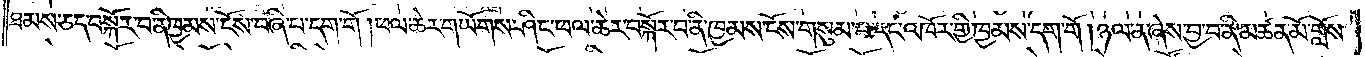ཐམས་ཅད་བསྐོར་བ་ནི་ཁྱམས་ངོས་བཞི་པ་དག་གོ །ཕལ་ཆེར་གཡོགས་ཤིང་ཕལ་ཆེར་བསྐོར་བ་ནི་ཁྱམས་ངོས་གསུམ་པ་དང་འཁོར་གྱི་ཁྱམས་དག་གོ །ཉལ་ན་ཞེས་བྱ་བ་ནི་མཚན་མོ་གློས་
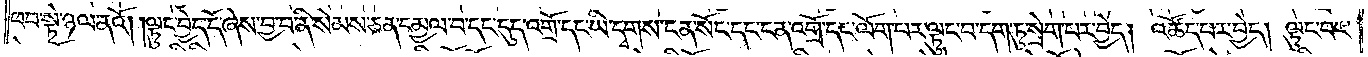ཕབ་སྟེ་ཉལ་ནའོ། །ལྟུང་བྱེད་དོ་ཞེས་བྱ་བ་ནི་སེམས་ཅན་དམྱལ་བ་དང་དུད་འགྲོ་དང་ཡི་དྭགས་ངན་སོང་དང་ངན་འགྲོ་དང་ལོག་པར་ལྟུང་བ་དག་ཏུ་སྲེག་པར་བྱེད། འཚོད་པར་བྱེད། ལྟུང་བར་
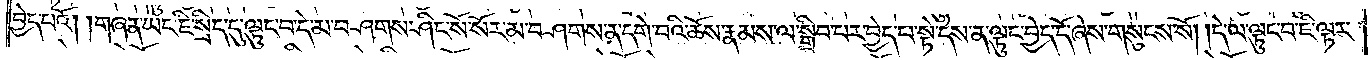བྱེད་པའོ། །གཞན་ཡང་ཇི་སྲིད་དུ་ལྟུང་བ་དེ་མ་བཤགས་ཤིང་སོ་སོར་མ་བཤགས་ན་དགེ་བའི་ཆོས་རྣམས་ལ་སྒྲིབ་པར་བྱེད་པ་སྟེ་དེས་ན་ལྟུང་བྱེད་དོ་ཞེས་གསུངས་སོ། །དེ་ལ་ལྟུང་བ་ཇི་ལྟར་
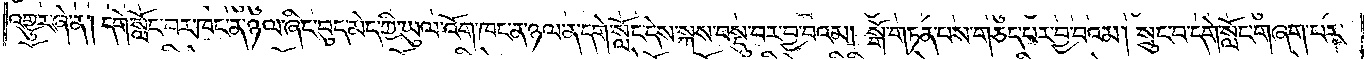འགྱུར་ཞེ་ན། དགེ་སློང་བར་ཁང་ན་ཉལ་ཞིང་བུད་མེད་ཀྱི་ཡུལ་འོག་ཁང་ན་ཉལ་ན་དགེ་སློང་དེས་སྐས་བསྡུ་བར་བྱ་བའམ། སྒོ་གཏན་པས་གཅད་པར་བྱ་བའམ། སྲུང་བ་དགེ་སློང་གཞག་པར་
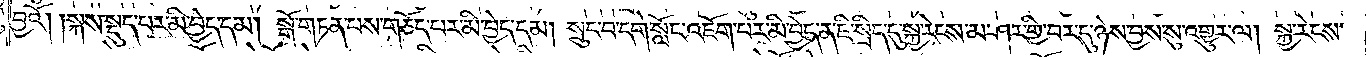བྱའོ། །སྐས་སྡུད་པར་མི་བྱེད་དམ། སྒོ་གཏན་པས་གཅོད་པར་མི་བྱེད་དམ། སྲུང་བ་དགེ་སློང་འཇོག་པར་མི་བྱེད་ན་ཇི་སྲིད་དུ་སྐྱ་རེངས་མ་ཤར་གྱི་བར་དུ་ཉེས་བྱས་སུ་འགྱུར་ལ། སྐྱ་རེངས་
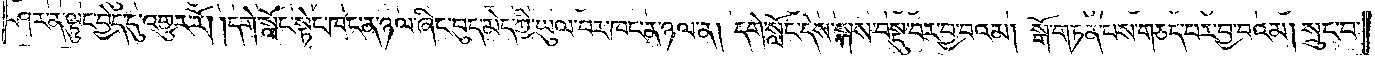ཤར་ན་ལྟུང་བྱེད་དུ་འགྱུར་རོ། །དགེ་སློང་སྟེང་ཁང་ན་ཉལ་ཞིང་བུད་མེད་ཀྱི་ཡུལ་བར་ཁང་ན་ཉལ་ན། དགེ་སློང་དེས་སྐས་བསྡུ་བར་བྱ་བའམ། སྒོ་གཏན་པས་གཅད་པར་བྱ་བའམ། སྲུང་བ་
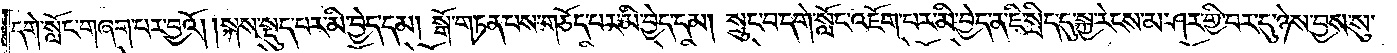དགེ་སློང་གཞག་པར་བྱའོ། །སྐས་སྡུད་པར་མི་བྱེད་དམ། སྒོ་གཏན་པས་གཅོད་པར་མི་བྱེད་དམ། སྲུང་བ་དགེ་སློང་འཇོག་པར་མི་བྱེད་ན་ཇི་སྲིད་དུ་སྐྱ་རེངས་མ་ཤར་གྱི་བར་དུ་ཉེས་བྱས་སུ་
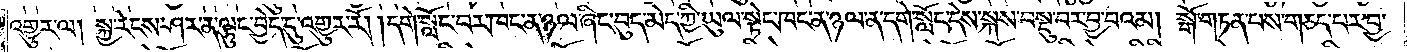འགྱུར་ལ། སྐྱ་རེངས་ཤར་ན་ལྟུང་བྱེད་དུ་འགྱུར་རོ། །དགེ་སློང་བར་ཁང་ན་ཉལ་ཞིང་བུད་མེད་ཀྱི་ཡུལ་སྟེང་ཁང་ན་ཉལ་ན་དགེ་སློང་དེས་སྐས་བསྡུ་བར་བྱ་བའམ། སྒོ་གཏན་པས་གཅད་པར་བྱ་
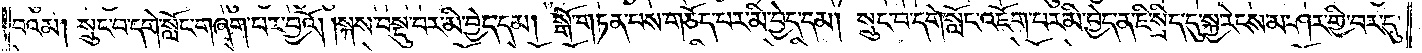བའམ། སྲུང་བ་དགེ་སློང་གཞག་པར་བྱའོ། །སྐས་བསྡུ་བར་མི་བྱེད་དམ། སྒོ་གཏན་པས་གཅོད་པར་མི་བྱེད་དམ། སྲུང་བ་དགེ་སློང་འཇོག་པར་མི་བྱེད་ན་ཇི་སྲིད་དུ་སྐྱ་རེངས་མ་ཤར་གྱི་བར་དུ་
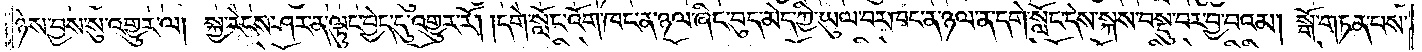ཉེས་བྱས་སུ་འགྱུར་ལ། སྐྱ་རེངས་ཤར་ན་ལྟུང་བྱེད་དུ་འགྱུར་རོ། །དགེ་སློང་འོག་ཁང་ན་ཉལ་ཞིང་བུད་མེད་ཀྱི་ཡུལ་བར་ཁང་ན་ཉལ་ན་དགེ་སློང་དེས་སྐས་བསྡུ་བར་བྱ་བའམ། སྒོ་གཏན་པས་
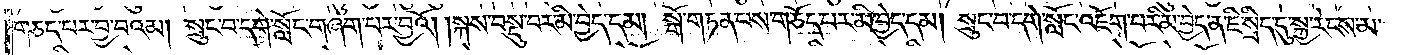གཅད་པར་བྱ་བའམ། སྲུང་བ་དགེ་སློང་གཞག་པར་བྱའོ། །སྐས་བསྡུ་བར་མི་བྱེད་དམ། སྒོ་གཏན་པས་གཅོད་པར་མི་བྱེད་དམ། སྲུང་བ་དགེ་སློང་འཇོག་པར་མི་བྱེད་ན་ཇི་སྲིད་དུ་སྐྱ་རེངས་མ་
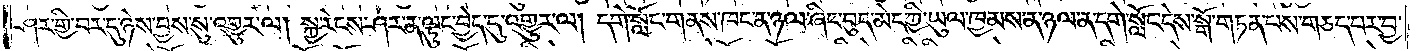ཤར་གྱི་བར་དུ་ཉེས་བྱས་སུ་འགྱུར་ལ། སྐྱ་རེངས་ཤར་ན་ལྟུང་བྱེད་དུ་འགྱུར་ལ། དགེ་སློང་གནས་ཁང་ན་ཉལ་ཞིང་བུད་མེད་ཀྱི་ཡུལ་ཁྱམས་ན་ཉལ་ན་དགེ་སློང་དེས་སྒོ་གཏན་པས་གཅད་པར་བྱ་
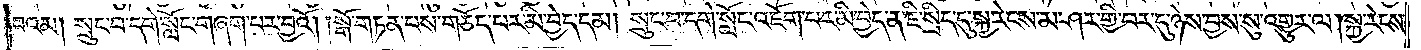བའམ། སྲུང་བ་དགེ་སློང་གཞག་པར་བྱའོ། །སྒོ་གཏན་པས་གཅོད་པར་མི་བྱེད་དམ། སྲུང་བ་དགེ་སློང་འཇོག་པར་མི་བྱེད་ན་ཇི་སྲིད་དུ་སྐྱ་རེངས་མ་ཤར་གྱི་བར་དུ་ཉེས་བྱས་སུ་འགྱུར་ལ། སྐྱ་རེངས་
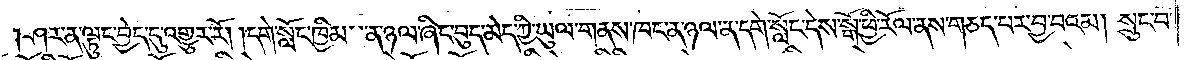ཤར་ན་ལྟུང་བྱེད་དུ་འགྱུར་རོ། །དགེ་སློང་ཁྱིམ་ན་ཉལ་ཞིང་བུད་མེད་ཀྱི་ཡུལ་གནས་ཁང་ན་ཉལ་ན་དགེ་སློང་དེས་སྒོ་ཕྱི་རོལ་ནས་གཅད་པར་བྱ་བའམ། སྲུང་བ་
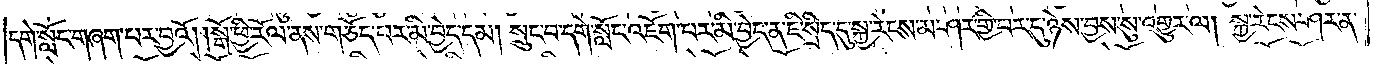དགེ་སློང་གཞག་པར་བྱའོ། །སྒོ་ཕྱི་རོལ་ནས་གཅོད་པར་མི་བྱེད་དམ། སྲུང་བ་དགེ་སློང་འཇོག་པར་མི་བྱེད་ན་ཇི་སྲིད་དུ་སྐྱ་རེངས་མ་ཤར་གྱི་བར་དུ་ཉེས་བྱས་སུ་འགྱུར་ལ། སྐྱ་རེངས་ཤར་ན་
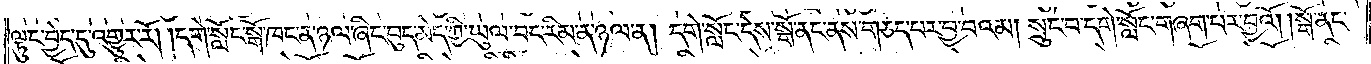ལྟུང་བྱེད་དུ་འགྱུར་རོ། །དགེ་སློང་སྒོ་ཁང་ན་ཉལ་ཞིང་བུད་མེད་ཀྱི་ཡུལ་བང་རིམ་ན་ཉལ་ན། དགེ་སློང་དེས་སྒོ་ནང་ནས་གཅད་པར་བྱ་བའམ། སྲུང་བ་དགེ་སློང་གཞག་པར་བྱའོ། །སྒོ་ནང་
